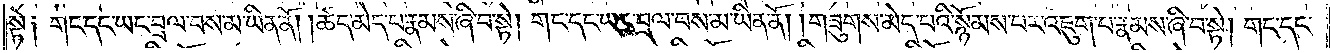སྟེ༑ གང་དང་ཡང་བྲལ་བས་མ་ཡིན་ནོ། །ཚད་མེད་པ་རྣམས་ཞི་བ་སྟེ། གང་དང་ཡང་བྲལ་བས་མ་ཡིན་ནོ། །གཟུགས་མེད་པའི་སྙོམས་པར་འཇུག་པ་རྣམས་ཞི་བ་སྟེ། གང་དང་
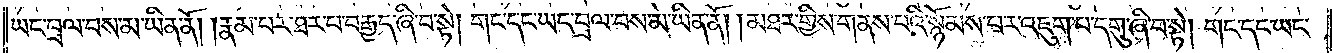ཡང་བྲལ་བས་མ་ཡིན་ནོ། །རྣམ་པར་ཐར་པ་བརྒྱད་ཞི་བ་སྟེ། གང་དང་ཡང་བྲལ་བས་མ་ཡིན་ནོ། །མཐར་གྱིས་གནས་པའི་སྙོམས་པར་འཇུག་པ་དགུ་ཞི་བ་སྟེ། གང་དང་ཡང་
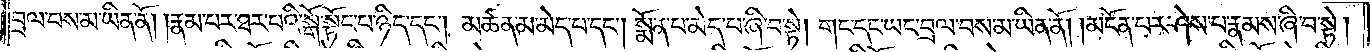བྲལ་བས་མ་ཡིན་ནོ། །རྣམ་པར་ཐར་པའི་སྒོ་སྟོང་པ་ཉིད་དང༌། མཚན་མ་མེད་པ་དང༌། སྨོན་པ་མེད་པ་ཞི་བ་སྟེ། གང་དང་ཡང་བྲལ་བས་མ་ཡིན་ནོ། །མངོན་པར་ཤེས་པ་རྣམས་ཞི་བ་སྟེ།
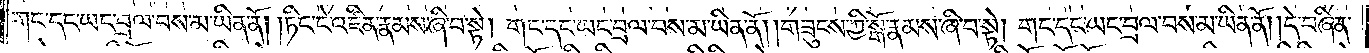གང་དང་ཡང་བྲལ་བས་མ་ཡིན་ནོ། །ཏིང་ངེ་འཛིན་རྣམས་ཞི་བ་སྟེ། གང་དང་ཡང་བྲལ་བས་མ་ཡིན་ནོ། །གཟུངས་ཀྱི་སྒོ་རྣམས་ཞི་བ་སྟེ། གང་དང་ཡང་བྲལ་བས་མ་ཡིན་ནོ། །དེ་བཞིན་
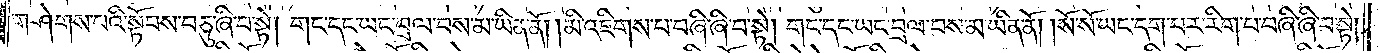གཤེགས་པའི་སྟོབས་བཅུ་ཞི་བ་སྟེ། གང་དང་ཡང་བྲལ་བས་མ་ཡིན་ནོ། །མི་འཇིགས་པ་བཞི་ཞི་བ་སྟེ། གང་དང་ཡང་བྲལ་བས་མ་ཡིན་ནོ། །སོ་སོ་ཡང་དག་པར་རིག་པ་བཞི་ཞི་བ་སྟེ།
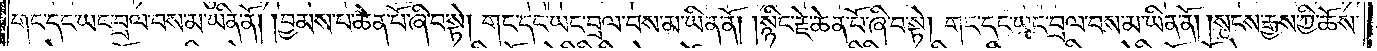གང་དང་ཡང་བྲལ་བས་མ་ཡིན་ནོ། །བྱམས་པ་ཆེན་པོ་ཞི་བ་སྟེ། གང་དང་ཡང་བྲལ་བས་མ་ཡིན་ནོ། །སྙིང་རྗེ་ཆེན་པོ་ཞི་བ་སྟེ། གང་དང་ཡང་བྲལ་བས་མ་ཡིན་ནོ། །སངས་རྒྱས་ཀྱི་ཆོས་
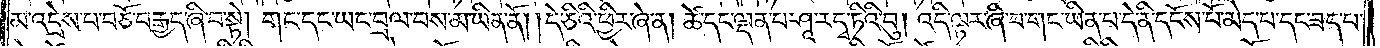མ་འདྲེས་པ་བཅོ་བརྒྱད་ཞི་བ་སྟེ། གང་དང་ཡང་བྲལ་བས་མ་ཡིན་ནོ། །དེ་ཅིའི་ཕྱིར་ཞེ་ན། ཚེ་དང་ལྡན་པ་ཤཱ་ར་དྭ་ཏིའི་བུ། འདི་ལྟར་ཞི་བ་གང་ཡིན་པ་དེ་ནི་དངོས་པོ་མེད་པ་དང་ཟད་པ་
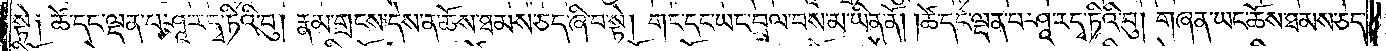སྟེ། ཚེ་དང་ལྡན་པ་ཤཱ་ར་དྭ་ཏིའི་བུ། རྣམ་གྲངས་དེས་ན་ཆོས་ཐམས་ཅད་ཞི་བ་སྟེ། གང་དང་ཡང་བྲལ་བས་མ་ཡིན་ནོ། །ཚེ་དང་ལྡན་པ་ཤཱ་ར་དྭ་ཏིའི་བུ། གཞན་ཡང་ཆོས་ཐམས་ཅད་
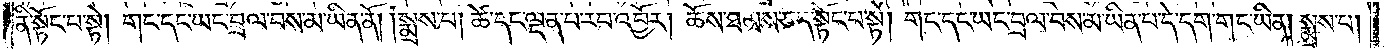ནི་སྟོང་པ་སྟེ། གང་དང་ཡང་བྲལ་བས་མ་ཡིན་ནོ། །སྨྲས་པ། ཚེ་དང་ལྡན་པ་རབ་འབྱོར། ཆོས་ཐམས་ཅད་སྟོང་པ་སྟེ། གང་དང་ཡང་བྲལ་བས་མ་ཡིན་པ་དེ་དག་གང་ཡིན། སྨྲས་པ།
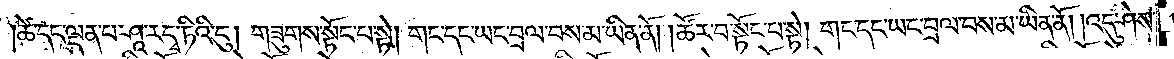ཚེ་དང་ལྡན་པ་ཤཱ་ར་དྭ་ཏིའི་བུ། གཟུགས་སྟོང་པ་སྟེ། གང་དང་ཡང་བྲལ་བས་མ་ཡིན་ནོ། །ཚོར་བ་སྟོང་པ་སྟེ། གང་དང་ཡང་བྲལ་བས་མ་ཡིན་ནོ། །འདུ་ཤེས་
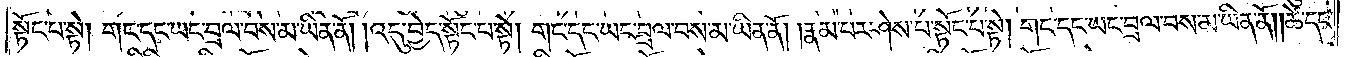སྟོང་པ་སྟེ། གང་དང་ཡང་བྲལ་བས་མ་ཡིན་ནོ། །འདུ་བྱེད་སྟོང་པ་སྟེ། གང་དང་ཡང་བྲལ་བས་མ་ཡིན་ནོ། །རྣམ་པར་ཤེས་པ་སྟོང་པ་སྟེ། གང་དང་ཡང་བྲལ་བས་མ་ཡིན་ནོ། །ཚེ་དང་
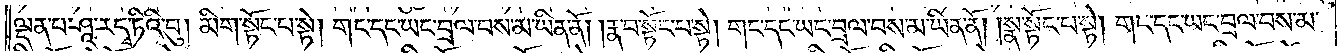ལྡན་པ་ཤཱ་ར་དྭ་ཏིའི་བུ། མིག་སྟོང་པ་སྟེ། གང་དང་ཡང་བྲལ་བས་མ་ཡིན་ནོ། །རྣ་བ་སྟོང་པ་སྟེ། གང་དང་ཡང་བྲལ་བས་མ་ཡིན་ནོ། །སྣ་སྟོང་པ་སྟེ། གང་དང་ཡང་བྲལ་བས་མ་
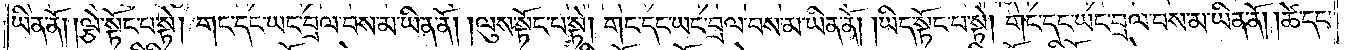ཡིན་ནོ། །ལྕེ་སྟོང་པ་སྟེ། གང་དང་ཡང་བྲལ་བས་མ་ཡིན་ནོ། །ལུས་སྟོང་པ་སྟེ། གང་དང་ཡང་བྲལ་བས་མ་ཡིན་ནོ། །ཡིད་སྟོང་པ་སྟེ། གང་དང་ཡང་བྲལ་བས་མ་ཡིན་ནོ། །ཚེ་དང་
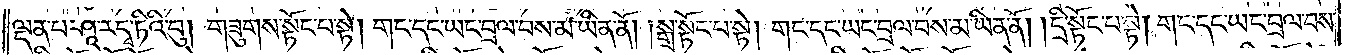ལྡན་པ་ཤཱ་ར་དྭ་ཏིའི་བུ། གཟུགས་སྟོང་པ་སྟེ། གང་དང་ཡང་བྲལ་བས་མ་ཡིན་ནོ། །སྒྲ་སྟོང་པ་སྟེ། གང་དང་ཡང་བྲལ་བས་མ་ཡིན་ནོ། །དྲི་སྟོང་པ་སྟེ། གང་དང་ཡང་བྲལ་བས་
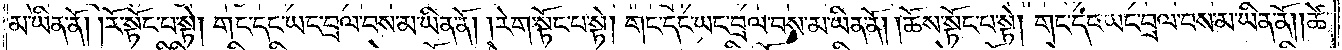མ་ཡིན་ནོ། །རོ་སྟོང་པ་སྟེ། གང་དང་ཡང་བྲལ་བས་མ་ཡིན་ནོ། །རེག་སྟོང་པ་སྟེ། གང་དང་ཡང་བྲལ་བས་མ་ཡིན་ནོ། །ཆོས་སྟོང་པ་སྟེ། གང་དང་ཡང་བྲལ་བས་མ་ཡིན་ནོ། །ཚེ་
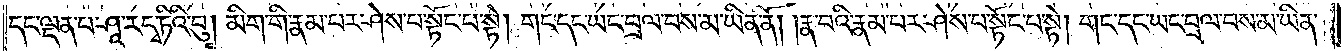དང་ལྡན་པ་ཤཱ་ར་དྭ་ཏིའི་བུ། མིག་གི་རྣམ་པར་ཤེས་པ་སྟོང་པ་སྟེ། གང་དང་ཡང་བྲལ་བས་མ་ཡིན་ནོ། །རྣ་བའི་རྣམ་པར་ཤེས་པ་སྟོང་པ་སྟེ། གང་དང་ཡང་བྲལ་བས་མ་ཡིན་
